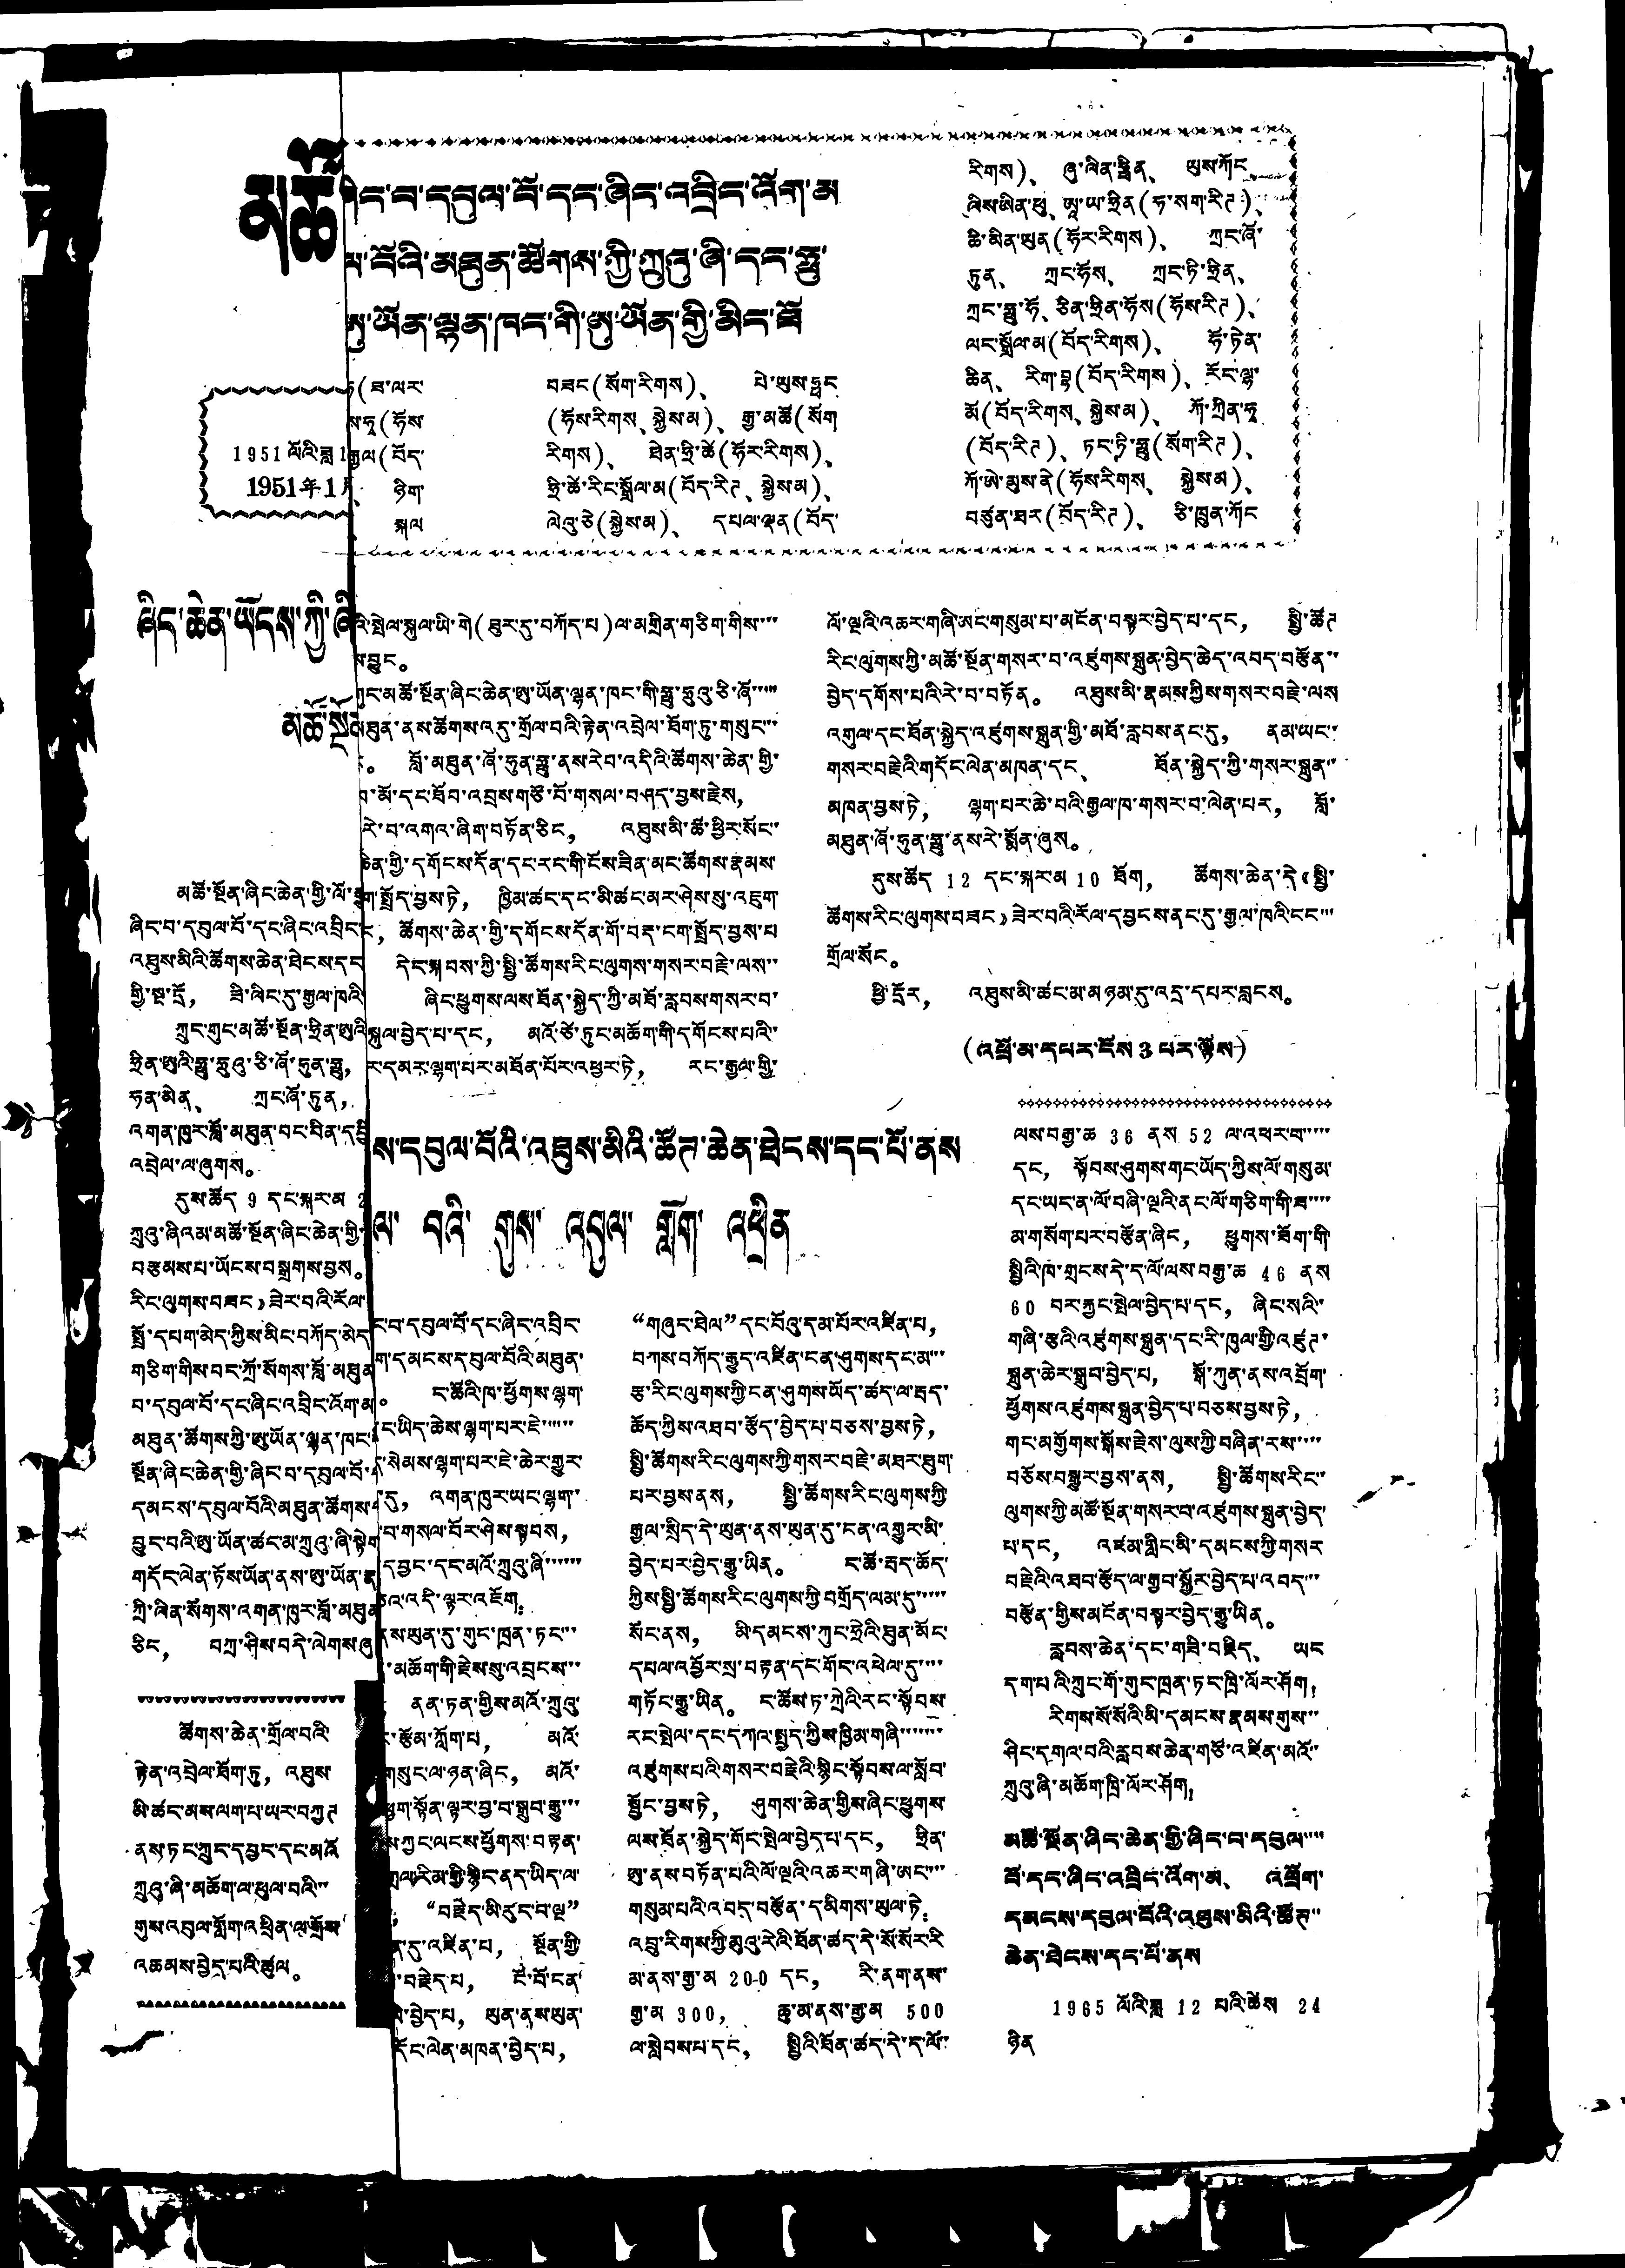ཞིང་ལ་དབུལ་ལོ་དང་ཞིང་འབྲིད་འོག་མ
ལ་བོའི་མཐུན་ཚོགས་ཀྱི་ཀྲུའུ་ཞི་དར་ཧྥུ་
ཨུ་ཡོན་ལྷན་ཁང་གི་ཨུ་ཡོན་གྱི་མིང་ཐོ
(ཟ་ལར་
ས་ཧྭ (ཧོས་
རྒྱལ (བོད་
、 ཉིག་
、 སྐལ་
བཟང (སོག་རིགས)、 པེ་ཡུས་ཧྥང
(ཧོས་རིགས、 སྐྱེས་མ)、 རྒྱ་མཚོ(སོག་
རིགས)、 ཐེན་ཧྲི་ཚེ(ཧོར་རིགས)、
ཧྲི་ཚེ་རིང་སྒྲོལ་མ(བོད་རིཊ、 སྐྱེས་མ)、
ལེའུ་ཅེ(སྐྱེས་མ)、 དཔལ་ལྡན (བོད་
རིགས)、 ཞུ་ལིན་ཧྥིན、 ལུས་ཀོང、
ལིས་མིན་ཕུ、 ཨཱ་ཡ་ཧྲིན (ཧ་སག་རིཊ )、
ཆི་མིན་ཡུན (ཧོར་རིགས)、 ཀྲུང་ཞོ་
ཏུན、 ཀྲུང་ཧོས、 ཀྲང་ཏི་ཧྲིན、
ཀྲུང་ཧྥུ་ཧོ、 ཅིན་ཧྲིན་ཧོས (ཧོས་རིཊ་)、
ལང་སྒྲོལ་མ་(བོད་རིགས)、 ཧོ་ཏེན་
ཆིན、 རིག་བྷ (བོད་རིགས)、 རོང་ལྷ་
མོ (བོད་རིགས、 སྐྱེས་མ)、 ཀོ་ཀྲིན་ཧྭ་
(བོད་རིཊ )、 ཏང་ཏི་ཧྥུ (སོག་རིཊ)、
ཀོ་ཨེ་མུས་ནེ(ཧོས་རིགས、 སྐྱེས་མ)、
བཙུན་ཐར (བོད་རིཊ)、 ཅི་ཁྲུན་ཀོང
འི་སྤེལ་སྐུལ་ཡི་གེ (ཟུར་དུ་བཀོད་པ) ལ་མགྲིན་གཅིག་གིས་་་
ས་བྱུང。
ཀུང་མཚོ་སྔོན་ཞིང་ཆེན་ཨུ་ཡོན་ལྷན་ཁང་གི་ཧྥུ་ཧྲུའུ་ཅི་ཞོ་་་་་
མཐུན་ནས་ཚོགས་འདུ་གྲོལ་བའི་རྟེན་འབྲེལ་ཐོག་ཏུ་གསུང་་་
。 བློ་མཐུན་ཞོ་ཧུན་ཧྥུ་ནས་རེབ་འདིའི་ཚོགས་ཆེན་གྱི་
བ་མོ་དང་ཐོབ་འབྲས་གཙོ་བོ་གསལ་བཤད་བྱས་རྗེས，
རེ་བ་འགའ་ཞིག་བཏོན་ཅིང， འཐུས་མི་ཚ་ཕྱིར་སོང་་
ཅེན་གྱི་དགོངས་དོན་དང་རང་གི་ངོས་ཟིན་མང་ཚོགས་རྣམས་
ག་སྤྲོད་བྱས་ཏེ， ཁྱིམ་ཚང་དང་མི་ཚང་མར་ཤེས་སུ་འཇུག་
，ཚོགས་ཆེན་གྱི་དགོངས་དོན་གོ་བརྡ་ངག་སྤྲོད་བྱས་པ
དེང་སྐབས་ཀྱི་སྤྱི་ཚོགས་རིང་ལུགས་གསར་བརྗེ་ལས་་
ཞིང་ཕྱུགས་ལས་ཐོན་སྐྱེད་ཀྱི་མཐོ་རླབས་གསར་བ་
སྐུལ་བྱེད་པ་དང， མའོ་ཙེ་ཏུང་མཆོག་གི་དགོངས་པའི་་
ར་དམར་ལྷག་པར་མཐོན་པོར་འཕྱར་ཏེ， རང་རྒྱལ་གྱི་
ལོ་ལྔའི་འཆར་གཞི་ཨང་གསུམ་པ་མངོན་བསྟར་བྱེད་པ་དང， སྤྱི་ཚོཊ
རིང་ལུགས་ཀྱི་མཚོ་སྔོན་གསར་བ་འཛུགས་སྐྲུན་བྱེད་ཆེད་འབད་བརྩོན་་
བྱེད་དགོས་པའི་རེ་བ་བཏོན。 འཐུས་མི་རྣམས་ཀྱིས་གསར་བརྗེ་ལས
འགུལ་དང་ཐོན་སྐྱེད་འཛུགས་སྐྲུན་གྱི་མཐོ་རླབས་ནང་དུ， ནམ་ཡང་་
གསར་བརྗེའི་གདོང་ལེན་མཁན་དང、 ཐོན་སྐྱེད་ཀྱི་གསར་སྐྲུན་་
མཁན་བྱས་ཏེ， ལྷག་པར་ཆེ་བའི་རྒྱལ་ཁ་གསར་བ་ལེན་པར， བློ་
མཐུན་ཞོ་ཧུན་ཧྥུ་ནས་རེ་སྨོན་ཞུས。
དུས་ཚོད 12 དང་སྐར་མ 10 ཐོག， ཚོགས་ཆེན་དེ《སྤྱི་
ཚོགས་རིང་ལུགས་བཟང》ཟེར་བའི་རོལ་དབྱངས་ནང་དུ་རྒྱལ་ཁའི་ངང་་་
གྲོལ་སོང。
ཕྱི་དྲོར， འཐུས་མི་ཚང་མ་མཉམ་དུ་འདྲ་དཔར་བླངས。
(འཕྲོ་མ་དཔར་ངོས་ 3 པར་ལྟོས)
ས་དབུལ་བོའི་འཐུས་མིའི་ཚོཊ་ཆེན་ཐེངས་དང་པོ་ནས
ལ་ བའི་ གུས་ འབུལ བློག་ འཕྲིན
ང་བ་དབུལ་བོ་དང་ཞིང་འབྲིང་
ག་དམངས་དབུལ་བོའི་མཐུན་
。 ང་ཚོའི་ཁ་ཕྱོགས་ལྷག་
ང་ཡིད་ཆེས་ལྷག་པར་ཇེ་་་་་་
་སེམས་ལྷག་པར་ཇེ་ཆེར་གྱུར་
་དུ， འགན་ཁུར་ཡང་ལྷག་་
བ་གསལ་པོར་ཤེས་སྟབས，
དབྱང་དང་མའོ་ཀྲུའུ་ཞི་་་་་་་
འ་འདི་ལྟར་འཇོག：
ས་ཡུན་དུ་གུང་ཁྲན་ཏང་་་
་མཆོག་གི་རྗེས་སུ་འབྲངས་་་
ནན་ཏན་གྱིས་མའོ་ཀྲུའུ་
རྩོམ་ཀློག་པ， མའོ་
གསུང་ལ་ཉན་ཞིང， མའོ་
ག་སྟོན་ལྟར་བྱ་བ་སྒྲུབ་རྒྱུ་་་
ས་ཀྱང་ལངས་ཕྱོགས་བརྟན་
ཀྲལ་རིམ་གྱི་སྙིང་ནད་ཡིད་ལ་
，“བརྗེད་མི་རུད་པ་ལྔ”
ན་དུ་འཛིན་པ， སྔོན་གྱི་
བརྗེད་པ， ངོ་བོ་ངན་
་བྱེད་པ， ཡུན་ནས་ཡུན་
དོང་ལེན་མཁན་བྱེད་པ，
“གཞུང་ཐེལ”དང་པོའུ་དམ་པོར་འཛིན་པ，
བཀས་བཀོད་རྒྱུད་འཛིན་ངན་ཤུགས་དང་མ་་་
རྩ་རིང་ལུགས་ཀྱི་ངན་ཤུགས་ཡོད་ཚད་ལ་རྦད་
ཆོད་ཀྱིས་འཐབ་རྩོད་བྱེད་པ་བཅས་བྱས་ཏེ，
སྤྱི་ཚོགས་རིང་ལུགས་ཀྱི་གསར་བརྗེ་མཐར་ཐུག་
པར་བྱས་ནས， སྤྱི་ཚོགས་རིང་ལུགས་ཀྱི་
རྒྱལ་སྲིད་དེ་ཡུན་ནས་ཡུན་དུ་ངན་འགྱུར་མི་
བྱེད་པར་བྱེད་རྒྱུ་ཡིན。 ང་ཚོ་རྦད་ཆོད་
ཀྱིས་སྤྱི་ཚོགས་རི་ང་ལུགས་ཀྱི་བགྲོད་ལམ་དུ་་་་་་
སོང་ནས， མི་དམངས་ཀུང་ཧྲེའི་ཐུན་མོང་
དཔལ་འབྱོར་སྲ་བརྟན་དང་གོང་འཕེལ་དུ་་་་
གཏོང་རྒྱུ་ཡིན。 ང་ཚོས་ཏ་ཀྲེའི་རང་སྟོབས་
རང་སྤེལ་དང་དཀའ་སྤྱད་ཀྱིས་ཁྱིམ་གཞི་་་་་་་་
འཛུགས་པའི་གསར་བརྗེའི་སྙིང་སྟོབས་ལ་སློབ་
སྦྱོང་བྱས་ཏེ， ཤུགས་ཆེན་གྱིས་ཞིང་ཕྱུགས་
ལས་ཐོན་སྐྱེད་གོང་སྤེལ་བྱེད་པ་དང， ཧྲིན་
ཨུ་ནས་བཏོན་པའི་ལོ་ལྔའི་འཆར་གཞི་ཨང་་་་
གསུམ་པའི་འབད་བརྩོན་དམིགས་ཡུལ་ཏེ：
འབྲུ་རིགས་ཀྱི་མུའུ་རེའི་ཐོན་ཚད་དེ་སོ་སོར་རི
མ་ནས་རྒྱུ་མ 200 དང， རི་ནག་ནས་
རྒྱ་མ 300， ཆུ་མ་ནས་རྒྱ་མ 500
ལ་སླེབས་པ་དང， སྤྱིའི་ཐོན་ཚད་དེ་ད་ལོ་་
ལས་བརྒྱ་ཆ 36 ནས 52 ལ་འཕར་བ་་་་་
དང， སྟོབས་ཤུགས་གང་ཡོད་ཀྱིས་ལོ་གསུམ་
དང་ཡང་ན་ལོ་བཞི་ལྔའི་ནང་ལོ་གཅིག་གི་ཟ་་་་
མ་གསོག་པར་བརྩོན་ཞིང， ཕྱུགས་ཟོག་གི་
སྤྱིའི་ཁ་གྲངས་དེ་ད་ལོ་ལས་བརྒྱ་ཆ 46 ནས།
60 བར་རྒྱུང་སྤེལ་བྱེད་པ་དང， ཞིང་སའི་
གཞི་རྩའི་འཛུགས་སྐྲུན་དང་རི་ཁུལ་གྱི་འཛུཊ་
སྐྲུན་ཆེར་སྒྲུབ་བྱེད་པ， སྒོ་ཀུན་ནས་འབྲོག་
ཕྱོགས་འཛུགས་སྐྲུན་བྱེད་པ་བཅས་བྱས་ཏེ，
གང་མགྱོགས་སྒོས་རྗེས་ལུས་ཀྱི་བཞིན་རས་་་་་
བཅོས་བསྒྱུར་བྱས་ནས， སྤྱི་ཚོགས་རིང་་
ལུགས་ཀྱི་མཚོ་སྔོན་གསར་བ་འཛུགས་སྐྲུན་བྱེད་
པ་དང， འཛམ་གླིང་མི་དམངས་ཀྱི་གསར
བརྗེའི་འཐབ་རྩོད་ལ་རྒྱབ་སྐྱོར་བྱེད་པ་འབད་་་
བརྩོན་གྱིས་མངོན་བསྟར་བྱེད་རྒྱུ་ཡིན。
རླབས་ཆེན་དང་གཟི་བརྗིད、 ཡང
དག་པའི་ཀྲུང་གོ་གུང་ཁྲན་ཏང་ཁྲི་ལོར་ཤོག！
རིགས་སོ་སོའི་མི་དམངས་རྣམས་གུས་་་
ཤིང་དགའ་བའི་རླབས་ཆེན་གཙོ་འཛིན་མའོ་་
ཀྲུའུ་ཞི་མཆོག་ཁྲི་ལོར་ཤོག！
མཚི་སྔོན་ཞིང་ཆེན་གྱི་ཞིང་བ་དབུལ་་་་
བོ་དང་ཞིང་འབྲིད་འོག་མ、 འབྲོག་
དམངས་དབུལ་བོའི་འཐུས་མིའི་ཚོཊ་་
ཆེན་ཐེངས་དང་པོ་ནས
1965 ལོའི་ཟླ 12 པའི་ཚེས 24
ཉིན
